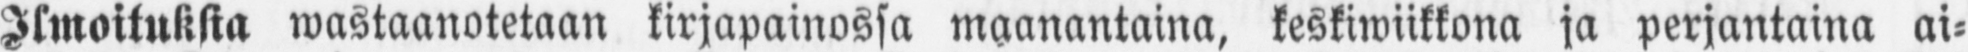Ilmoituksia wastaanotetaan kirjapainossa maanantaina, keskiwiikkona ja perjantaina ai-
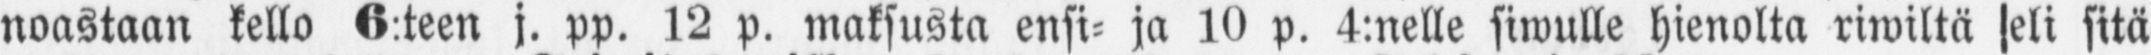noastaan kello 6:teen j. pp. 12 p. maksusta ensi- ja 10 p. 4:nelle siwulle hienolta riwiltä eli sitä
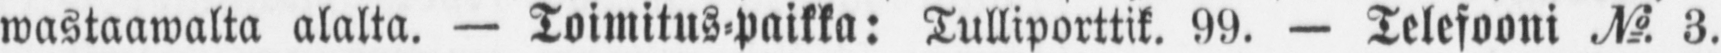wastaawalta alalta. — Toimitus-Paikka: Tulliporttik. 99. — Telefooni No. 3.
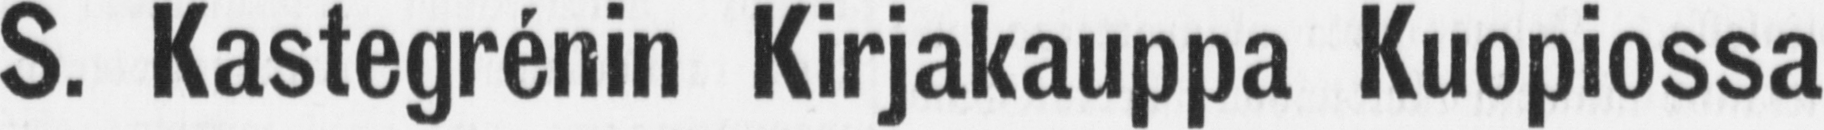S. Kastegrénin Kirjakauppa Kuopiossa
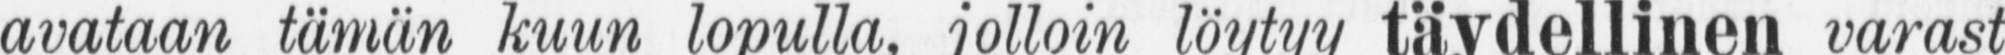avataan tämän kuun lopulla, jolloin löytyy täydellinen varasto
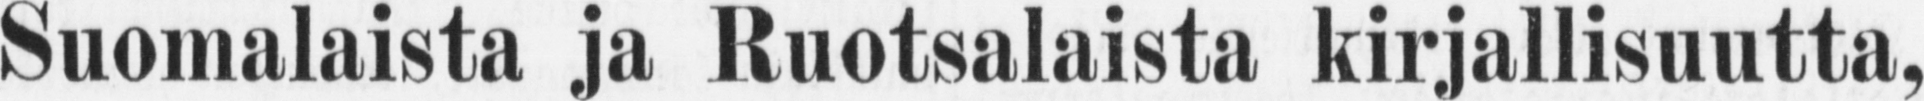Suoma1aista ja Ruotsalaista kirjallisuutta,
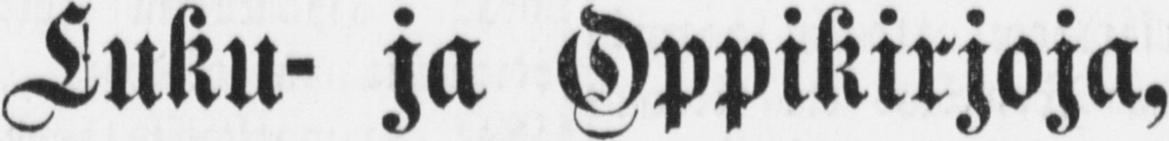Luku- ja Oppikirjoja,
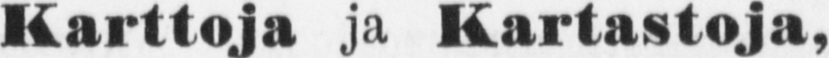Karttoja ja Kartastoja, Kirjoitus- ja -Piirustus-vihkoja
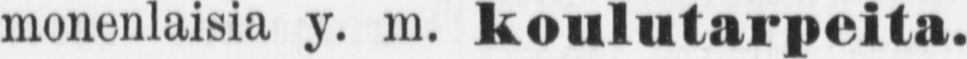monenlaisia y. m. koulutarpeita.
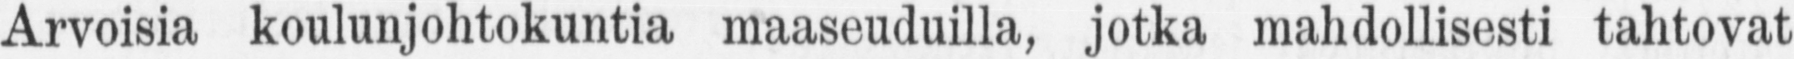Arvoisia koulunjohtokuntia maaseuduilla, jotka mahdollisesti tahtovat
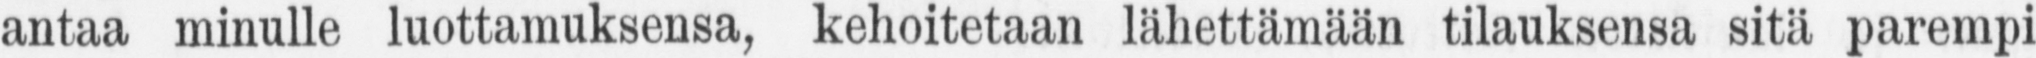antaa minulle luottamuksensa, kehoitetaan lähettämään tilauksensa sitä parempi
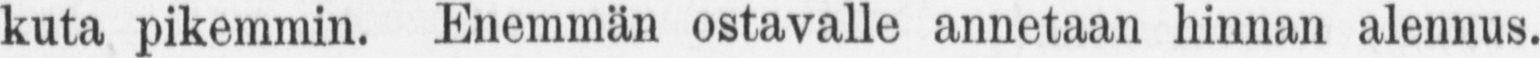kuta pikemmin. Enemmän ostavalle annetaan hinnan alennus.
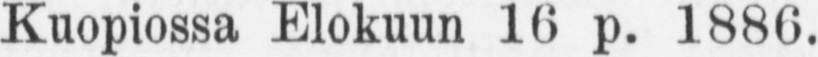Kuopiossa Elokuun 16 p. 1886.
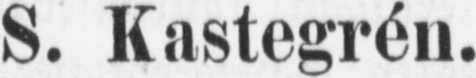S. Kastegrén.
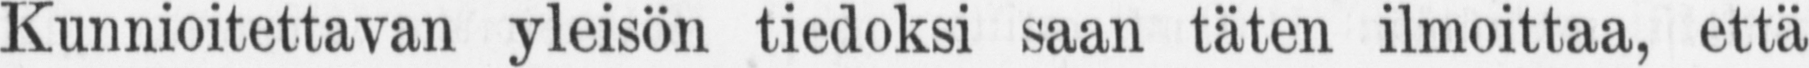Kunnioitettavan yleisön tiedoksi saan täten ilmoittaa, että
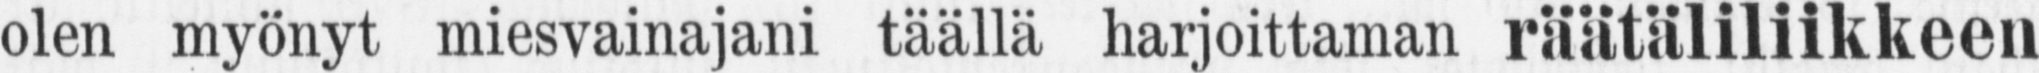olen my önyt miesvainajani täällä harjoittaman räätäliliikkeen
